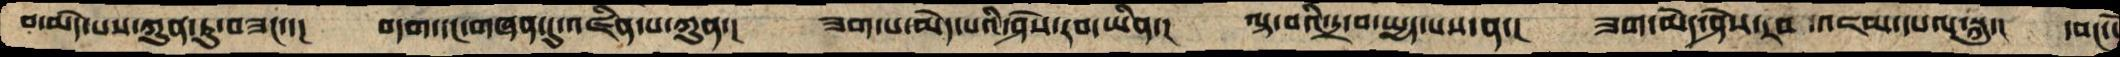བ་མེད་པས་ཀུན་ཏུ་བཟང་་།  བདག་དང་གཞན་དུ་འཛིན་པ་ཀུན་།  ཟག་པ་མེད་པའི་ཤེས་རབ་ཡིན་།  ལྟ་བའི་དྲ་བ་སྤྱད་པས་ན་།  ཟག་མེད་ཤེས་རབ་འཇམ་དཔལ་སྐུ་།  དབང་
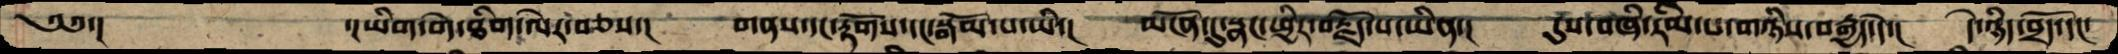༄༅་།    ་།ཡིག་བདེ་ཐིག་ལེར་བཅས་།  གནས་དང་རྟོགས་དང་སྒོམ་པ་ཡི་།  མངོན་དུ་སྣང་ཕྱིར་བརྗོད་པ་ཡིན་།  དུས་བཞི་རིམ་པ་གཉིས་བརྒྱད་དེ་།  དེ་ཉིད་བྲོད་དང་
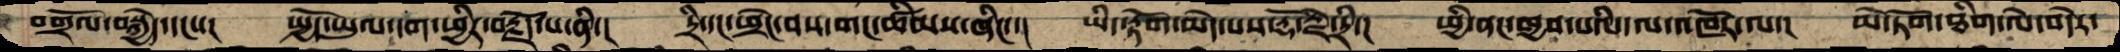བགྲོལ་བསྐྱེད་དང་་།  སྤྱོད་ཡུལ་དག་ཕྱིར་བརྗོད་པ་ནི་།  དྲི་དང་ཕྲེང་བས་གང་ཚིམས་ཞིང་་།  ཡི་སྟོག་མེད་པས་རྡོ་རྗེ་དྲི་།  ཕྱི་ནང་ཁྱབ་པའི་ལ་འཁོར་ལ་།  མེ་ཏོག་ཐིག་ལེ་བདེར་
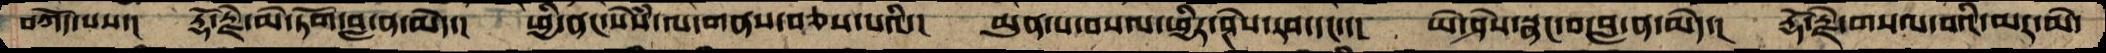བཀོད་པས་།  རྡོ་རྗེ་མེ་ཏོག་བླ་ན་མེད་།  ཕྱི་ནང་སེཾས་ལ་གནས་བཅས་པའི་།  མུན་པ་བསལ་ཕྱིར་ཤེས་རབ་དང་་།  ཡེ་ཤེས་སྣང་བ་བླ་ན་མེད་།  རྡོ་རྗེ་གསལ་བའི་མར་མེ་
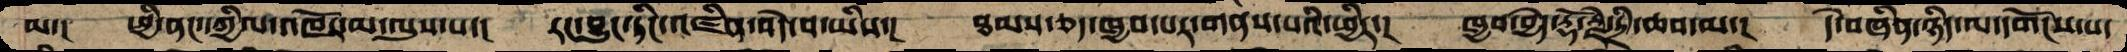མ་།  ཕྱི་ནང་དཀྱིལ་འཁོར་མ་ལུས་པ་།  རང་བྱུང་ཏིང་འཛིན་བདེ་བ་ཡིས་།  ཐམས་ཅད་ཁྱབ་པར་གནས་པའི་ཕྱིར་།  ཁྱབ་བྱེད་རྡོ་རྗེ་དྲི་ཆབ་མ་།  དེ་བཞིན་ཉིད་ལ་དགོངས་པ་
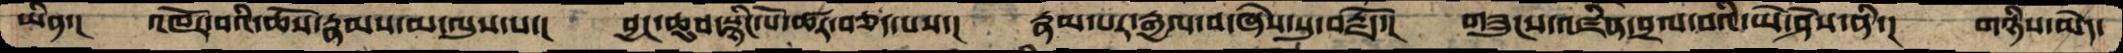ཡིན་།  འཁོར་བའི་ཆོས་རྣམས་མ་ལུས་པ་།  བྱང་ཆུབ་སྙིང་པོ་ཚར་བཅད་པས་།  རྣམ་པར་རྒྱལ་བ་ཞེས་སུ་བརྗོད་།  གཟུངས་འཛིན་བྲལ་བའི་ཡེ་ཤེས་ནི་།  གཉིས་མེད་
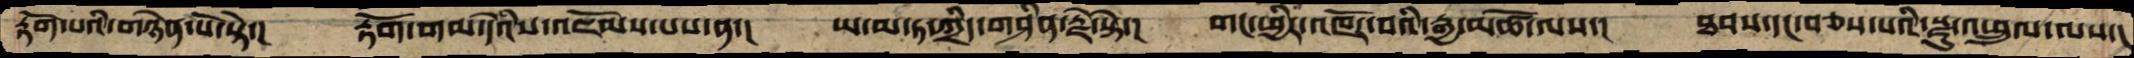རྟོག་པའི་གཉེན་པོ་སྟེ་།  རྟོག་གམ་དེའིས་འཇོམས་པས་ན་།  ཡ་མ་ཏ་ཀྲིད་གཤིན་རྗེ་སྟེ་།  གང་ཕྱིར་འཁོར་བའི་རྒྱ་མཚོ་ལས་།  ཐབས་དང་བཅས་པའི་སྫུ་འཕྲུལ་ལས་།
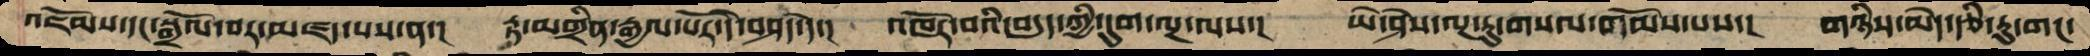འཇོམས་དང་སྒྲོལ་བར་མཛད་པས་ན་།  རྟ་མགྲིན་རྒྱལ་པོར་དེ་བཤད་དེ་།  འཁོར་བའི་བདུད་ཀྱི་དུག་ལྔ་ལས་།  ཡེ་ཤེས་ལྔ་རུ་གསལ་གོམས་པས་།  གཉིས་མེད་རྩི་རུ་གང་
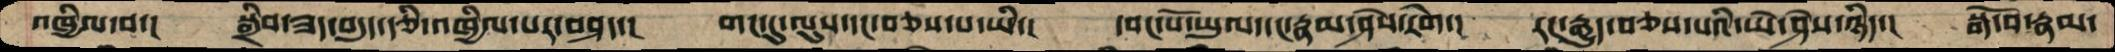འཁྱིལ་བ་།  སྒྲིབ་ཟད་བདུད་རྩི་འཁྱིལ་པར་བཤད་།  གང་དུ་ལུས་དང་བཅས་པ་ཡི་།  དབང་པོ་ཡུལ་དང་རྣམ་ཤེས་རེག་།  རང་རྒྱུད་བཅས་པའི་ཡེ་ཤེས་ཉིད་།  སྒོ་བ་རྣམ་
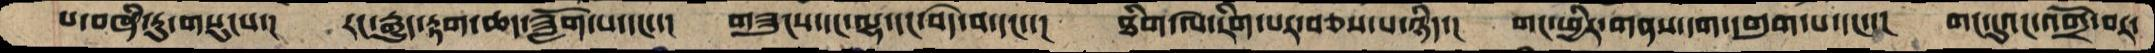པ་བཞི་རུ་གསུངས་།  རང་རྒྱུད་རྟག་ཆད་ཟློག་པ་དང་་།  གཟུངས་དང་ལྷ་དང་བདེ་བ་དང་་།  ཐིག་ལེ་རིག་པར་བཅས་པ་ཉིད་།  གང་ཕྱིར་གནས་དག་དགུག་པ་དང་་།  གང་དུའང་འགྲོ་བར་
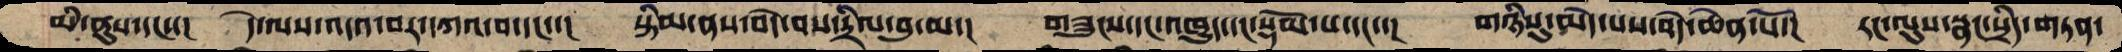མི་ནུས་དང་་།  དེ་ལས་འདའ་བར་དཀའ་བ་དང་་།  སྟིམ་ནས་བདེ་བས་དྲིལ་བུ་མ་།  གཟུངས་དང་འཁྱུད་དང་སྡོམ་པ་དང་་།  གཉིསུ་མེད་པས་བདེ་ཆེན་པོ་།  རང་ལུས་སྣང་སྲིད་གཏན་
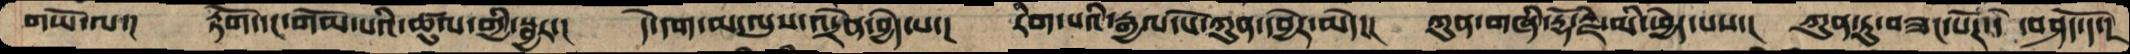གཡོ་ལ་།  རྟོག་དང་གོམ་པའི་ཚུལ་གྱི་སྦྱར་།  དེ་དག་མ་ལུས་འདྲེན་བྱེད་པ་།  རིག་པའི་རྒྱལ་པོ་ཀུན་དབྱེར་མེད་།  ཀུན་གཞི་རྡོ་རྗེ་མི་ཕྱེད་པས་།  ཀུན་ཏུ་བཟང་པོར་དེ ་བཤད་དོ་།
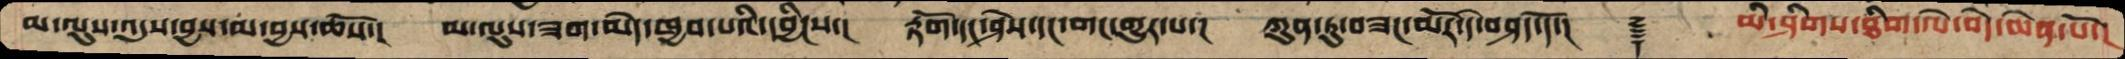མ་ལུས་འདུས་བྱས་མ་བྱས་ཆོས་། མ་ལུས་ཟག་མེད་ཁྱབ་པའི་དབྱིངས་།  རྟོག་དང་ཤེས་དང་གང་གྱུར་པ་།  ཀུན་ཏུ་བཟང་མོར་དེ་བཤད་དོ་།  ༈  མི་ཤིགས་ཐིག་ལེ་བདེ་ཆེན་པོ་།
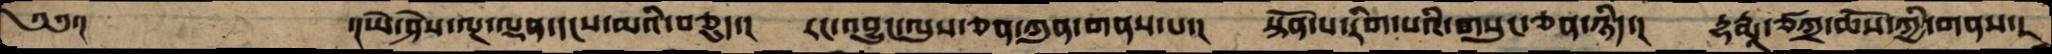༄༅་།     ་།ཡེ་ཤེས་ལྔ་ལྡན་དངས་མའི་བཅུད་།  རང་བྱུང་ལུས་ཅན་ཀུན་གནས་པ་།  སྟོན་པ་རིག་པའི་གསུང་ཅན་ཉིད་།  རྡརྨཱ་ཙཀྲ་ཆོས་ཀྱི་གནས་།
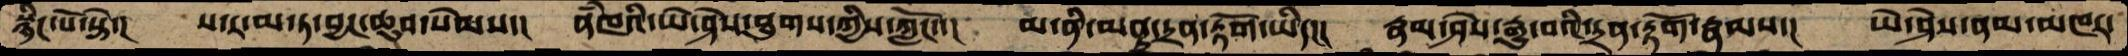སྙིང་པོ་སྟེ་།  ས་ར་མ་ཏ་བྱང་ཆུབ་སེམས་།  ནཾཁའི་ཡེ་ཤེས་ཐུགས་ཀྱིས་ཀློང་་།  མ་ནི་མནྟྲ་དྲན་རྟོག་ཡིད།།།  རྣམ་ཤེས་རྒྱུ་བའི་དྲན་རྟོག་རྣམས་།  ཡེ་ཤེས་ནམ་མཁར་
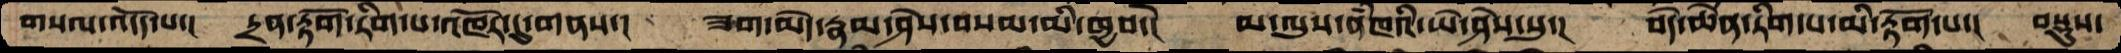གསལ་འདོད་པ་།  དྲན་རྟོག་རིག་པ་འཁོར་དུ་གནས་།  ཟག་མེད་རྣམ་ཤེས་བསམ་མི་ཁྱབ་།  མ་ལུས་ནཾཁའི་ཡེ་ཤེས་སུ་།  བདེ་ཆེན་རིག་པ་མི་རྟོག་པ་།  བསྡུས་
